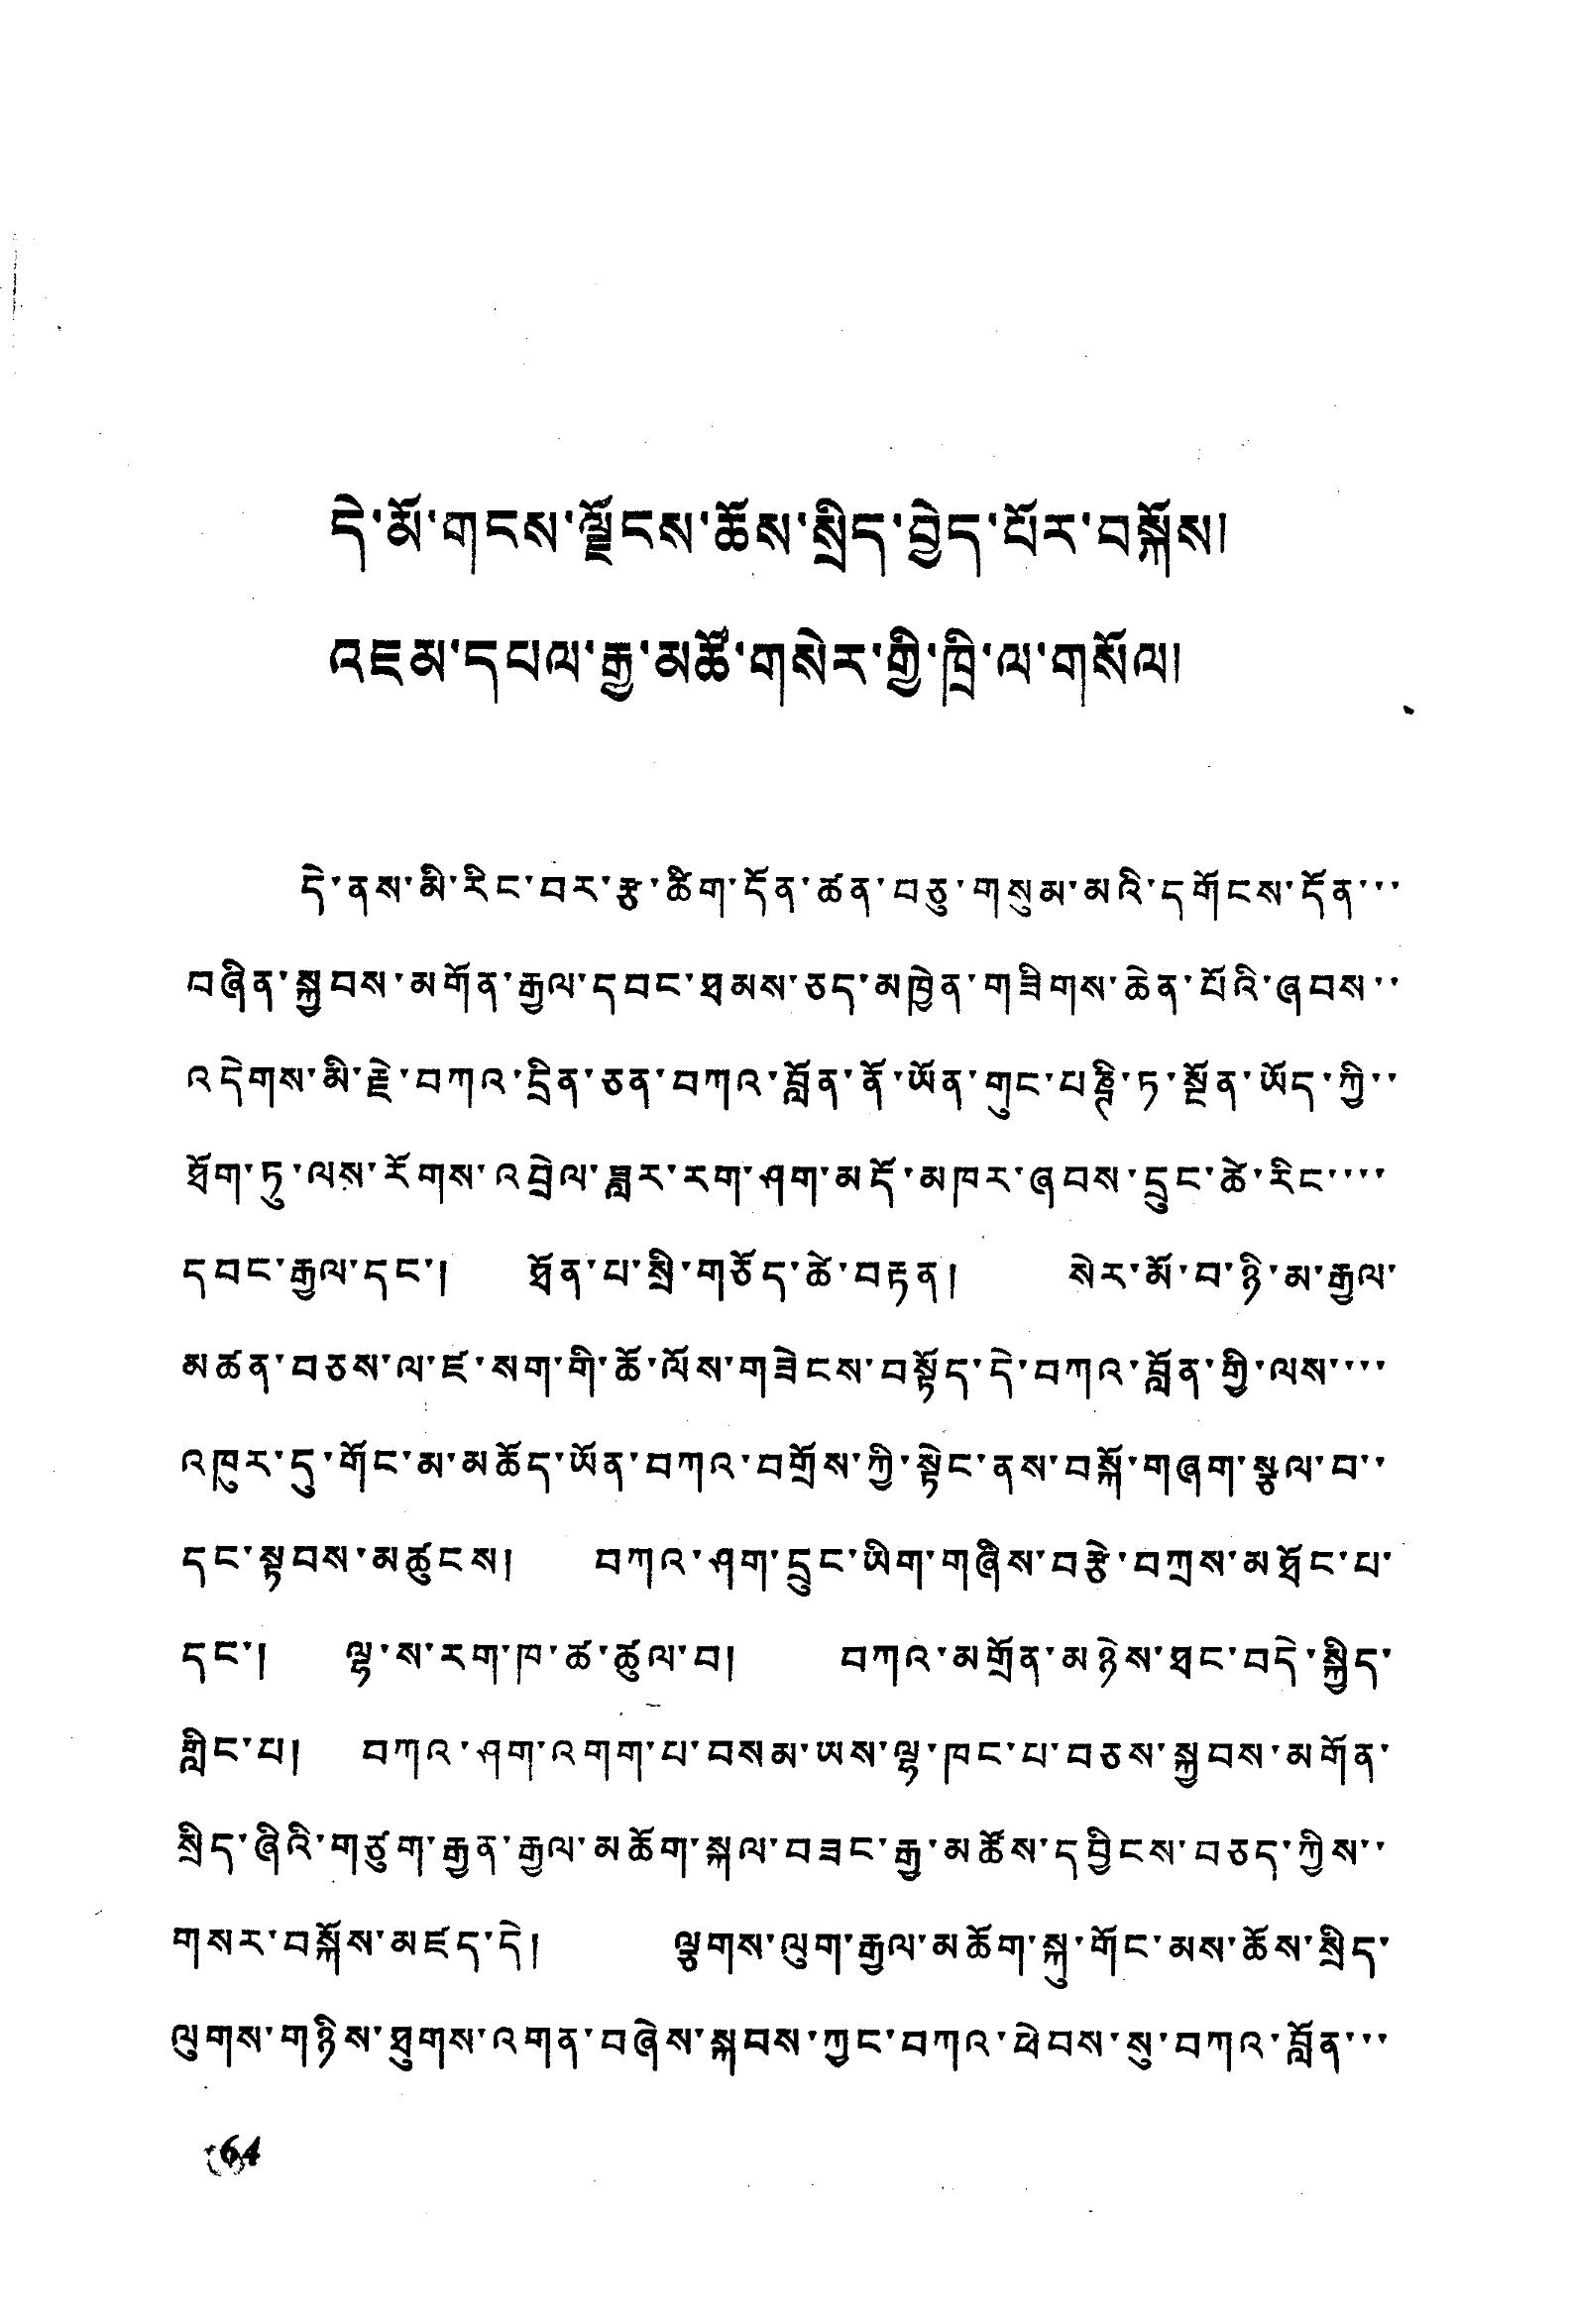དེ་མོ་གངས་ལྗོངས་ཆོས་སྲིད་བྱེད་པོར་བསྐོས།
འཇམ་དཔལ་རྒྱ་མཚོ་གསེར་གྱི་ཁྲི་ལ་གསོལ།
དེ་ནས་མི་རིང་བར་རྩ་ཚིག་དོན་ཚན་བཅུ་གསུམ་མའི་དགོངས་དོན་་་
བཞིན་སྐྱབས་མགོན་རྒྱལ་དབང་ཐམས་ཅད་མཁྱེན་གཟིགས་ཆེན་པོའི་ཞབས་་
འདེགས་མི་རྗེ་བཀའ་དྲིན་ཅན་བཀའ་བློན་ནོ་ཡོན་གུང་པཎྚི་ཏ་སྔོན་ཡོད་ཀྱི་་
ཐོག་ཏུ་ལས་རོགས་འབྲེལ་ཟླར་རག་ཤག་མདོ་མཁར་ཞབས་དྲུང་ཚེ་རིང་་་་
དབང་རྒྱལ་དང་། ཐོན་པ་སྲི་གཅོད་ཚེ་བརྟན། སེར་མོ་བ་ཉི་མ་རྒྱལ་
མཚན་བཅས་ལ་ཛ་སག་གི་ཆོ་ལོས་གཟེངས་བསྟོད་དེ་བཀའ་བློན་གྱི་ལས་་་་
འཁུར་དུ་གོང་མ་མཆོད་ཡོན་བཀའ་བགྲོས་ཀྱི་སྟེང་ནས་བསྐོ་བཞག་སྩལ་བ་
དང་སྟབས་མཚུངས། བཀའ་ཤག་དྲུང་ཡིག་གཞིས་བརྩེ་བཀྲས་མཐོང་པ་
དང་། ལྷ་ས་རག་ཁ་ཚ་ཚུལ་བ། བཀའ་མགྲོན་མཉེས་ཐང་བདེ་སྐྱིད་
གླིང་པ། བཀའ་ཤག་འགག་པ་བསམ་ཡས་ལྷ་ཁང་པ་བཅས་སྐྱབས་མགོན་
སྲིད་ཞིའི་གཙུག་རྒྱན་རྒྱལ་མཆོག་སྐལ་བཟང་རྒྱ་མཚོས་དབྱིངས་བཅད་ཀྱིས་་
གསར་བསྐོས་མཛད་དེ། ལྕགས་ལུག་རྒྱལ་མཆོག་སྐུ་གོང་མས་ཆོས་སྲིད་
ལུགས་གཉིས་ཐུགས་འགན་བཞེས་སྐབས་ཀྱང་བཀའ་ཕེབས་སུ་བཀའ་བློན་་་
64
